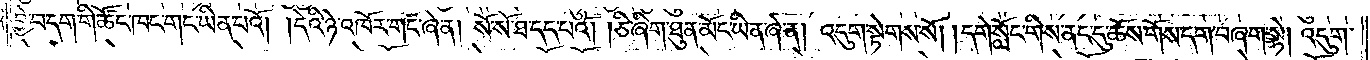བྱེ་བ་དག་གི་ཚོང་ཁང་གང་ཡིན་པའོ། །དེའི་ཉེ་འཁོར་གང་ཞེ་ན། སོ་སོ་ཐ་དད་པའོ། །ཅི་ཞིག་ཐུན་མོང་ཡིན་ཞེ་ན། འདུག་སྟེགས་སོ། །དགེ་སློང་གིས་ནང་དུ་ཆོས་གོས་དག་བཞག་སྟེ། འདུག་
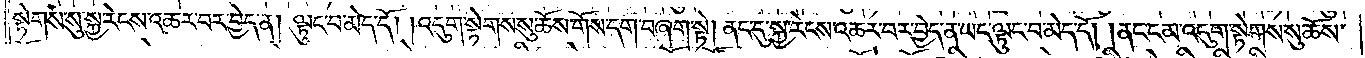སྟེགས་སུ་སྐྱ་རེངས་འཆར་བར་བྱེད་ན། ལྟུང་བ་མེད་དོ། །འདུག་སྟེགས་སུ་ཆོས་གོས་དག་བཞག་སྟེ། ནང་དུ་སྐྱ་རེངས་འཆར་བར་བྱེད་ན་ཡང་ལྟུང་བ་མེད་དོ། །ནང་ངམ་འདུག་སྟེགས་སུ་ཆོས་
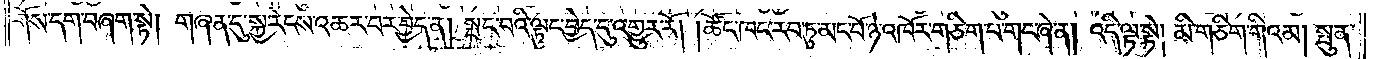གོས་དག་བཞག་སྟེ། གཞན་དུ་སྐྱ་རེངས་འཆར་བར་བྱེད་ན། སྤང་བའི་ལྟུང་བྱེད་དུ་འགྱུར་རོ། །ཚོང་ཁང་རབ་ཏུ་མང་པོ་ཉེ་འཁོར་གཅིག་པ་གང་ཞེ་ན། འདི་ལྟ་སྟེ། མི་གཅིག་གིའམ། སྤུན་
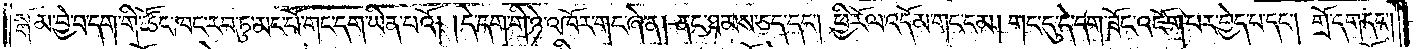སྒོ་མ་བྱེ་བ་དག་གི་ཚོང་ཁང་རབ་ཏུ་མང་པོ་གང་དག་ཡིན་པའོ། །དེ་དག་གི་ཉེ་འཁོར་གང་ཞེ་ན། ནང་ཐམས་ཅད་དང༌། ཕྱི་རོལ་འདོམ་གང་ངམ། གང་དུ་དེ་དག་ཟོང་འཇོག་པར་བྱེད་པ་དང༌། གྲོ་དག་དང༌།
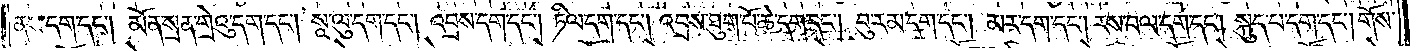ནས་དག་དང༌། མོན་སྲན་གྲེའུ་དག་དང༌། སཱ་ལུ་དག་དང༌། འབྲས་དག་དང༌། ཏིལ་དག་དང༌། འབྲས་ཐུག་པོ་ཆེ་དག་དང༌། བུ་རམ་དག་དང༌། མར་དག་དང༌། རས་བལ་དག་དང༌། སྐུད་པ་དག་དང༌། གོས་
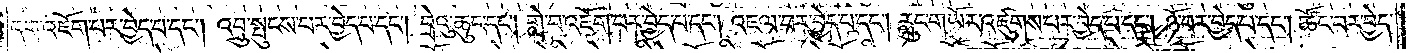དག་འཇོག་པར་བྱེད་པ་དང༌། འབྲུ་སྤུངས་པར་བྱེད་པ་དང༌། བྲེའུ་ཆུང་དང༌། གླེ་བ་འཇོག་པར་བྱེད་པ་དང༌། འཇལ་བར་བྱེད་པ་དང༌། རླུང་གཡོར་འཛུགས་པར་བྱེད་པ་དང༌། ཉོ་བར་བྱེད་པ་དང༌། ཚོང་བར་བྱེད་
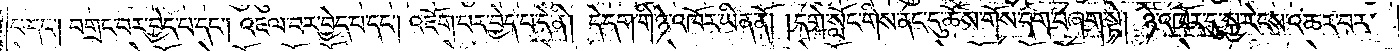པ་དང༌། བགྲང་བར་བྱེད་པ་དང༌། འཇལ་བར་བྱེད་པ་དང༌། འཇོག་པར་བྱེད་པ་དེ་ནི། དེ་དག་གི་ཉེ་འཁོར་ཡིན་ནོ། །དགེ་སློང་གིས་ནང་དུ་ཆོས་གོས་དག་བཞག་སྟེ། ཉེ་འཁོར་དུ་སྐྱ་རེངས་འཆར་བར་
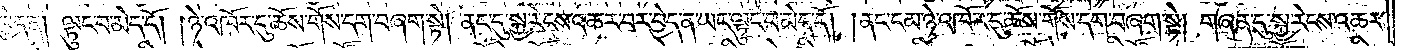བྱེད་ན། ལྟུང་བ་མེད་དོ། །ཉེ་འཁོར་དུ་ཆོས་གོས་དག་བཞག་སྟེ། ནང་དུ་སྐྱ་རེངས་འཆར་བར་བྱེད་ན་ཡང་ལྟུང་བ་མེད་དོ། །ནང་ངམ་ཉེ་འཁོར་དུ་ཆོས་གོས་དག་བཞག་སྟེ། གཞན་དུ་སྐྱ་རེངས་འཆར་
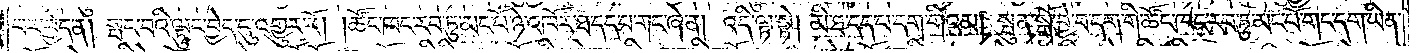བར་བྱེད་ན། སྤང་བའི་ལྟུང་བྱེད་དུ་འགྱུར་རོ། །ཚོང་ཁང་རབ་ཏུ་མང་པོ་ཉེ་འཁོར་ཐ་དད་པ་གང་ཞེ་ན། འདི་ལྟ་སྟེ། མི་ཐ་དད་པ་དག་གིའམ། སྤུན་སྒོ་བྱེ་བ་དག་གི་ཚོང་ཁང་རབ་ཏུ་མང་པོ་གང་དག་ཡིན་
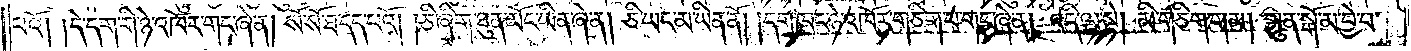པའོ། །དེ་དག་གི་ཉེ་འཁོར་གང་ཞེ་ན། སོ་སོ་ཐ་དད་པའོ། །ཅི་ཞིག་ཐུན་མོང་ཡིན་ཞེ་ན། ཅི་ཡང་མ་ཡིན་ནོ། །དགྲ་ཁང་ཉེ་འཁོར་གཅིག་པ་གང་ཞེ་ན། འདི་ལྟ་སྟེ། མི་གཅིག་གམ། སྤུན་སྒོ་མ་བྱེ་བ་
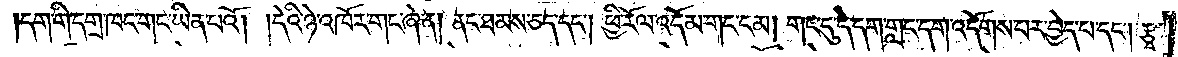དག་གི་དགྲ་ཁང་གང་ཡིན་པའོ། །དེའི་ཉེ་འཁོར་གང་ཞེ་ན། ནང་ཐམས་ཅད་དང༌། ཕྱི་རོལ་འདོམ་གང་ངམ། གང་དུ་དེ་དག་གླང་དག་འདོགས་པར་བྱེད་པ་དང༌། རྩྭ་
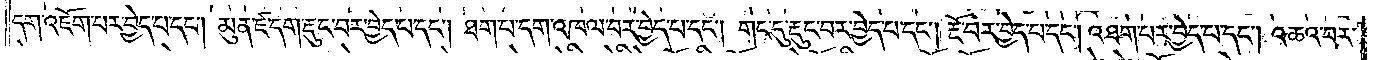དག་འཇོག་པར་བྱེད་པ་དང༌། མུན་ཛ་དག་རྡུང་བར་བྱེད་པ་དང༌། ཐག་པ་དག་འཁལ་བར་བྱེད་པ་དང༌། གང་དུ་རྡུང་བར་བྱེད་པ་དང༌། རྔོ་བར་བྱེད་པ་དང༌། འཐག་པར་བྱེད་པ་དང༌། འཆའ་བར་
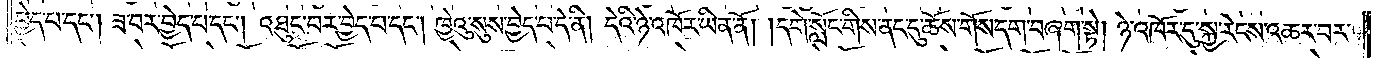བྱེད་པ་དང༌། ཟ་བར་བྱེད་པ་དང༌། འཐུང་བར་བྱེད་པ་དང༌། ཁྱེའུ་སུས་བྱེད་པ་དེ་ནི། དེའི་ཉེ་འཁོར་ཡིན་ནོ། །དགེ་སློང་གིས་ནང་དུ་ཆོས་གོས་དག་བཞག་སྟེ། ཉེ་འཁོར་དུ་སྐྱ་རེངས་འཆར་བར་
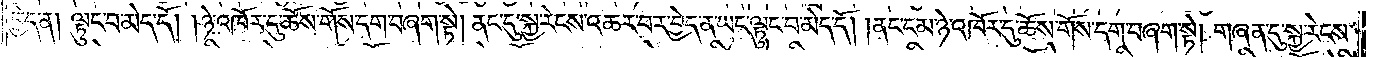བྱེད་ན། ལྟུང་བ་མེད་དོ། །ཉེ་འཁོར་དུ་ཆོས་གོས་དག་བཞག་སྟེ། ནང་དུ་སྐྱ་རེངས་འཆར་བར་བྱེད་ན་ཡང་ལྟུང་བ་མེད་དོ། །ནང་ངམ་ཉེ་འཁོར་དུ་ཆོས་གོས་དག་བཞག་སྟེ། གཞན་དུ་སྐྱ་རེངས་
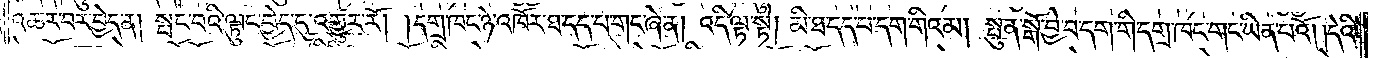འཆར་བར་བྱེད་ན། སྤང་བའི་ལྟུང་བྱེད་དུ་འགྱུར་རོ། །དགྲ་ཁང་ཉེ་འཁོར་ཐ་དད་པ་གང་ཞེ་ན། འདི་ལྟ་སྟེ། མི་ཐ་དད་པ་དག་གིའམ། སྤུན་སྒོ་བྱེ་བ་དག་གི་དགྲ་ཁང་གང་ཡིན་པའོ། །དེའི་
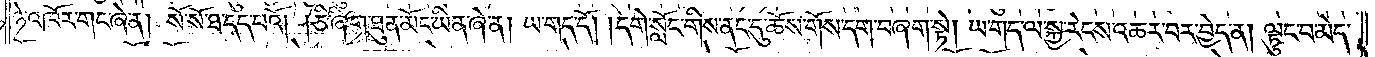ཉེ་འཁོར་གང་ཞེ་ན། སོ་སོ་ཐ་དད་པའོ། །ཅི་ཞིག་ཐུན་མོང་ཡིན་ཞེ་ན། ཡ་གད་དོ། །དགེ་སློང་གིས་ནང་དུ་ཆོས་གོས་དག་བཞག་སྟེ། ཡ་གད་ལ་སྐྱ་རེངས་འཆར་བར་བྱེད་ན། ལྟུང་བ་མེད་
